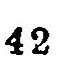42
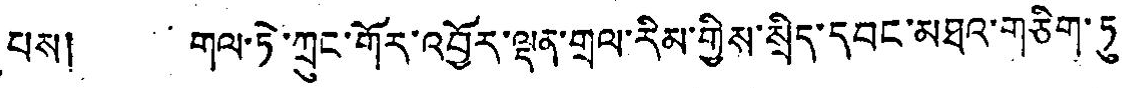པས། གལ་ཏེ་ཀྲུང་གོར་འབྱོར་ལྡན་གྲལ་རིམ་གྱིས་སྲིད་དབང་མཐའ་གཅིག་ཏུ་
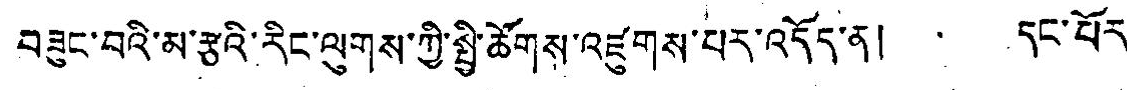བཟུང་བའི་མ་རྩའི་རིང་ལུགས་ཀྱི་སྤྱི་ཚོགས་འཛུགས་པར་འདོད་ན། དང་པོར་
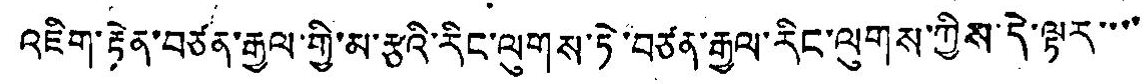འཇིག་རྟེན་བཙན་རྒྱལ་གྱི་མ་རྩའི་རིང་ལུགས་ཏེ་བཙན་རྒྱལ་རིང་ལུསྒ་ཀྱིས་དེ་ལྟར་་་་
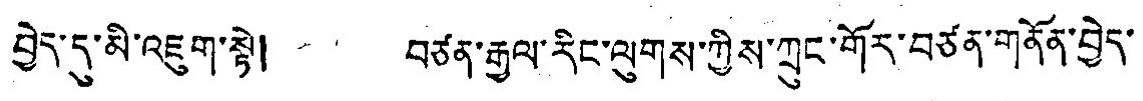བྱེད་དུ་མི་འཇུག་སྟེ། བཙན་རྒྱལ་རིང་ལུགས་ཀྱིས་ཀྲུང་གོར་བཙན་གནོན་བྱེད་
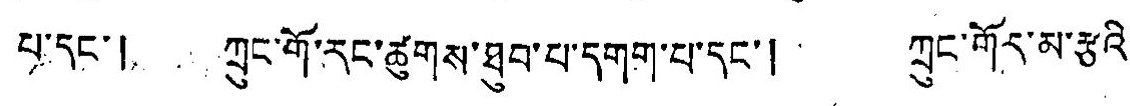པ་དང་། ཀྲུང་གོ་རང་ཚུགས་ཐུབ་པ་དགག་པ་དང་། ཀྲུང་གོར་མ་རྩའི་
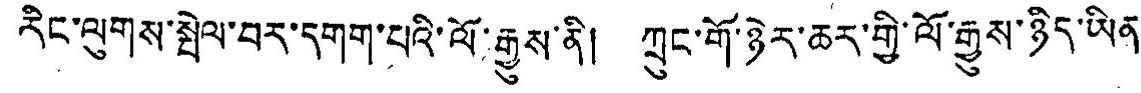རིང་ལུགས་སྤེལ་བར་དགག་པའི་ལོ་རྒྱུས་ནི། ཀྲུང་གོ་ཉེར་ཆར་གྱི་ལོ་རྒྱུས་ཉིས་ཡིན
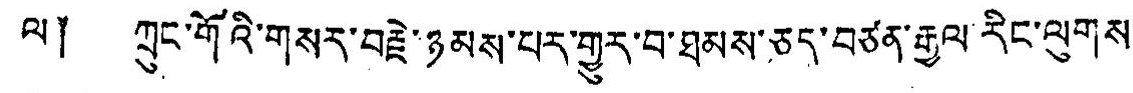ལ༈ ཀྲུང་གོའི་གསར་བརྗེ་ཉམས་པར་གྱུར་བ་ཐམས་ཅད་བཙན་རྒྱལ་རིང་ལུགས་
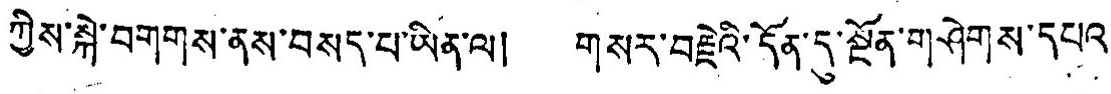ཀྱིས་སྐེ་བགགས་ནས་བསད་པ་ཡིན་ལ། གསར་བརྗེའི་དོན་དུ་སྔོན་གཤེགས་དཔའ་
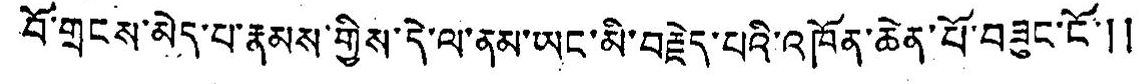བོ་གྲངས་མེད་པ་རྣམས་གྱིས་དེ་ལ་ནམ་ཡང་མི་བརྗེད་པའི་འཁོན་ཆེན་པོ་བཟུང་ངོ་།།
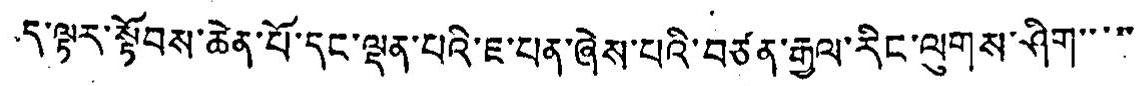ད་ལྟར་སྟོབས་ཆེན་པོ་དང་ལྡན་པའི་ཇ་པན་ཞེས་པའི་བཙན་རྒྱལ་རིང་ལུགས་ཤིག་་་་
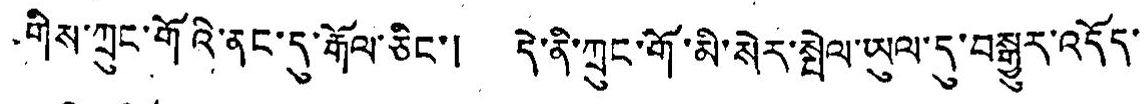གིས་ཀྲུང་གོའི་ནང་དུ་རྒོལ་ཅིང་། དེ་ནི་ཀྲུང་གོ་མི་སེར་སྤེལ་ཡུལ་དུ་བསྒྱུར་འདོད་
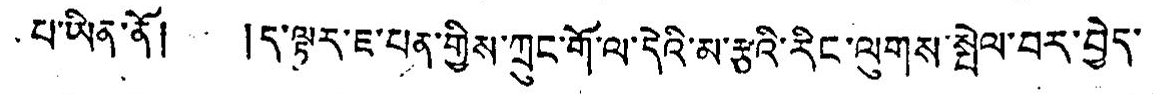པ་ཡིན་ནོ། །ད་ལྟར་ཇ་པན་གྱིས་ཀྲུང་གོ་ལ་དེའི་མ་རྩའི་རིང་ལུགས་སྤེལ་བར་བྱེད་
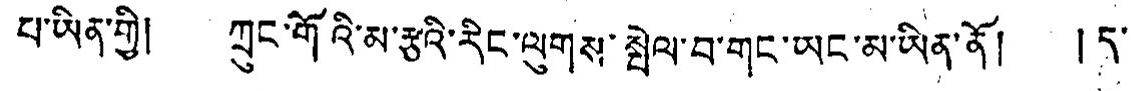པ་ཡིན་གྱི། ཀྲུང་གོའི་མ་རྩའི་རིང་ལུགས་སྤེལ་བ་གང་ཡང་མ་ཡིན་ནོ། །ད་
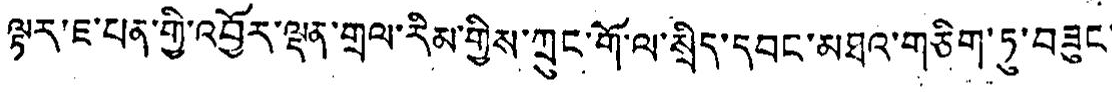ལྟར་ཇ་པན་གྱི་འབྱོར་ལྡན་གྲལ་རིམ་གྱིས་ཀྲུང་གོ་ལ་སྲིད་དབང་མཐའ་གཅིག་ཏུ་བཟུང་
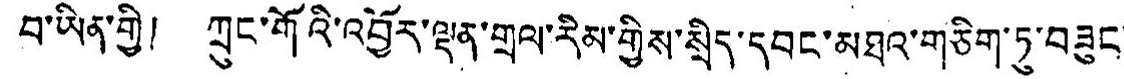བ་ཡིན་གྱི། ཀྲུང་གོའི་འབྱོར་ལྡན་གྲལ་རིམ་གྱིས་སྲིད་དབང་མཐའ་གཅིག་ཏུ་བཟུང་
